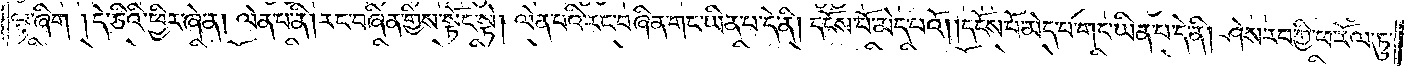ལྟ་ཞིག །དེ་ཅིའི་ཕྱིར་ཞེ་ན། ལེན་པ་ནི། རང་བཞིན་གྱིས་སྟོང་སྟེ། ལེན་པའི་རང་བཞིན་གང་ཡིན་པ་དེ་ནི། དངོས་པོ་མེད་པའོ། །དངོས་པོ་མེད་པ་གང་ཡིན་པ་དེ་ནི། ཤེས་རབ་ཀྱི་ཕ་རོལ་ཏུ་
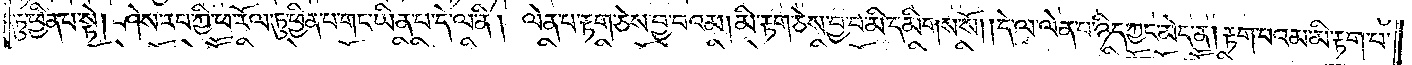ཏུ་ཕྱིན་པ་སྟེ། ཤེས་རབ་ཀྱི་ཕ་རོལ་ཏུ་ཕྱིན་པ་གང་ཡིན་པ་དེ་ལ་ནི། ལེན་པ་རྟག་ཅེས་བྱ་བའམ། མི་རྟག་ཅེས་བྱ་བ་མི་དམིགས་སོ། །དེ་ལ་ལེན་པ་ཉིད་ཀྱང་མེད་ན། རྟག་པའམ་མི་རྟག་པ་
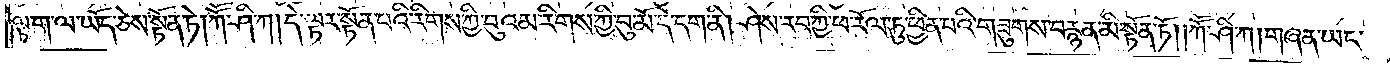ལྟ་ག་ལ་ཡོད་ཅེས་སྟོན་ཏེ། ཀཽ་ཤི་ཀ། དེ་ལྟར་སྟོན་པའི་རིགས་ཀྱི་བུའམ་རིགས་ཀྱི་བུ་མོ་དེ་དག་ནི། ཤེས་རབ་ཀྱི་ཕ་རོལ་ཏུ་ཕྱིན་པའི་གཟུགས་བརྙན་མི་སྟོན་ཏོ། །ཀཽ་ཤི་ཀ། གཞན་ཡང་
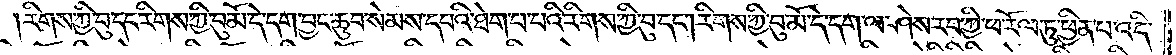རིགས་ཀྱི་བུ་དང་རིགས་ཀྱི་བུ་མོ་དེ་དག་བྱང་ཆུབ་སེམས་དཔའི་ཐེག་པ་པའི་རིགས་ཀྱི་བུ་དང༌། རིགས་ཀྱི་བུ་མོ་དེ་དག་ལ་ཤེས་རབ་ཀྱི་ཕ་རོལ་ཏུ་ཕྱིན་པ་འདི་
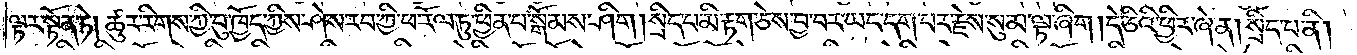ལྟར་སྟོན་ཏེ། ཚུར་རིགས་ཀྱི་བུ་ཁྱོད་ཀྱིས་ཤེས་རབ་ཀྱི་ཕ་རོལ་ཏུ་ཕྱིན་པ་སྒོམས་ཤིག །སྲིད་པ་མི་རྟག་ཅེས་བྱ་བར་ཡང་དག་པར་རྗེས་སུ་མ་ལྟ་ཞིག །དེ་ཅིའི་ཕྱིར་ཞེ་ན། སྲིད་པ་ནི།
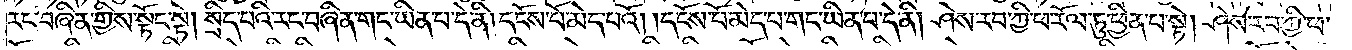རང་བཞིན་གྱིས་སྟོང་སྟེ། སྲིད་པའི་རང་བཞིན་གང་ཡིན་པ་དེ་ནི། དངོས་པོ་མེད་པའོ། །དངོས་པོ་མེད་པ་གང་ཡིན་པ་དེ་ནི། ཤེས་རབ་ཀྱི་ཕ་རོལ་ཏུ་ཕྱིན་པ་སྟེ། ཤེས་རབ་ཀྱི་ཕ་
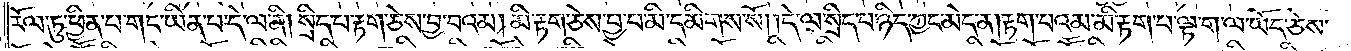རོལ་ཏུ་ཕྱིན་པ་གང་ཡིན་པ་དེ་ལ་ནི། སྲིད་པ་རྟག་ཅེས་བྱ་བའམ། མི་རྟག་ཅེས་བྱ་བ་མི་དམིགས་སོ། །དེ་ལ་སྲིད་པ་ཉིད་ཀྱང་མེད་ན། རྟག་པའམ་མི་རྟག་པ་ལྟ་ག་ལ་ཡོད་ཅེས་
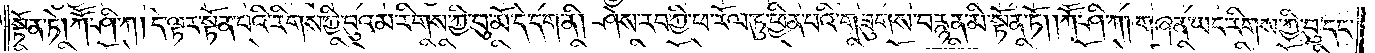སྟོན་ཏེ། ཀཽ་ཤི་ཀ། དེ་ལྟར་སྟོན་པའི་རིགས་ཀྱི་བུའམ་རིགས་ཀྱི་བུ་མོ་དེ་དག་ནི། ཤེས་རབ་ཀྱི་ཕ་རོལ་ཏུ་ཕྱིན་པའི་གཟུགས་བརྙན་མི་སྟོན་ཏོ། །ཀཽ་ཤི་ཀ། གཞན་ཡང་རིགས་ཀྱི་བུ་དང་
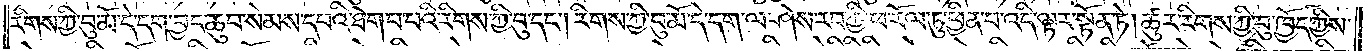རིགས་ཀྱི་བུ་མོ་དེ་དག་བྱང་ཆུབ་སེམས་དཔའི་ཐེག་པ་པའི་རིགས་ཀྱི་བུ་དང༌། རིགས་ཀྱི་བུ་མོ་དེ་དག་ལ་ཤེས་རབ་ཀྱི་ཕ་རོལ་ཏུ་ཕྱིན་པ་འདི་ལྟར་སྟོན་ཏེ། ཚུར་རིགས་ཀྱི་བུ་ཁྱོད་ཀྱིས་
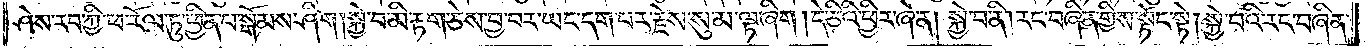ཤེས་རབ་ཀྱི་ཕ་རོལ་ཏུ་ཕྱིན་པ་སྒོམས་ཤིག །སྐྱེ་བ་མི་རྟག་ཅེས་བྱ་བར་ཡང་དག་པར་རྗེས་སུ་མ་ལྟ་ཞིག །དེ་ཅིའི་ཕྱིར་ཞེ་ན། སྐྱེ་བ་ནི། རང་བཞིན་གྱིས་སྟོང་སྟེ། སྐྱེ་བའི་རང་བཞིན་
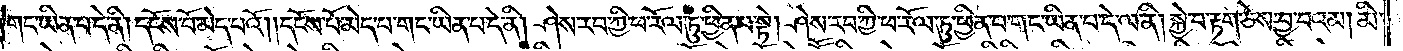གང་ཡིན་པ་དེ་ནི། དངོས་པོ་མེད་པའོ། །དངོས་པོ་མེད་པ་གང་ཡིན་པ་དེ་ནི། ཤེས་རབ་ཀྱི་ཕ་རོལ་ཏུ་ཕྱིན་པ་སྟེ། ཤེས་རབ་ཀྱི་ཕ་རོལ་ཏུ་ཕྱིན་པ་གང་ཡིན་པ་དེ་ལ་ནི། སྐྱེ་བ་རྟག་ཅེས་བྱ་བའམ། མི་
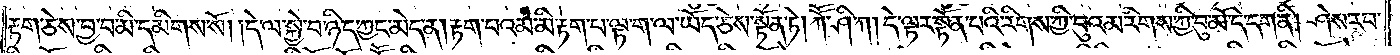རྟག་ཅེས་བྱ་བ་མི་དམིགས་སོ། །དེ་ལ་སྐྱེ་བ་ཉིད་ཀྱང་མེད་ན། རྟག་པའམ་མི་རྟག་པ་ལྟ་ག་ལ་ཡོད་ཅེས་སྟོན་ཏེ། ཀཽ་ཤི་ཀ། དེ་ལྟར་སྟོན་པའི་རིགས་ཀྱི་བུའམ་རིགས་ཀྱི་བུ་མོ་དེ་དག་ནི། ཤེས་རབ་
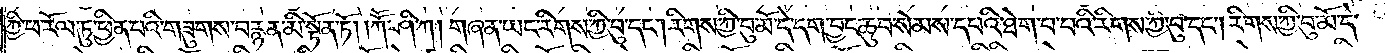ཀྱི་ཕ་རོལ་ཏུ་ཕྱིན་པའི་གཟུགས་བརྙན་མི་སྟོན་ཏོ། །ཀཽ་ཤི་ཀ། གཞན་ཡང་རིགས་ཀྱི་བུ་དང༌། རིགས་ཀྱི་བུ་མོ་དེ་དག་བྱང་ཆུབ་སེམས་དཔའི་ཐེག་པ་པའི་རིགས་ཀྱི་བུ་དང༌། རིགས་ཀྱི་བུ་མོ་དེ་
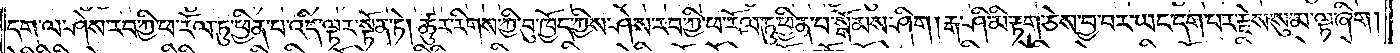དག་ལ་ཤེས་རབ་ཀྱི་ཕ་རོལ་ཏུ་ཕྱིན་པ་འདི་ལྟར་སྟོན་ཏེ། ཚུར་རིགས་ཀྱི་བུ་ཁྱོད་ཀྱིས་ཤེས་རབ་ཀྱི་ཕ་རོལ་ཏུ་ཕྱིན་པ་སྒོམས་ཤིག །རྒ་ཤི་མི་རྟག་ཅེས་བྱ་བར་ཡང་དག་པར་རྗེས་སུ་མ་ལྟ་ཞིག །
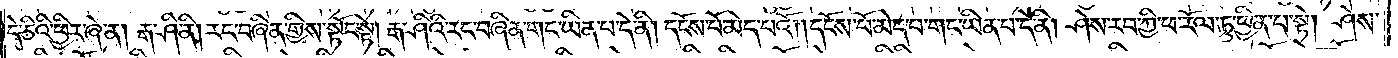དེ་ཅིའི་ཕྱིར་ཞེ་ན། རྒ་ཤི་ནི། རང་བཞིན་གྱིས་སྟོང་སྟེ། རྒ་ཤིའི་རང་བཞིན་གང་ཡིན་པ་དེ་ནི། དངོས་པོ་མེད་པའོ། །དངོས་པོ་མེད་པ་གང་ཡིན་པ་དེ་ནི། ཤེས་རབ་ཀྱི་ཕ་རོལ་ཏུ་ཕྱིན་པ་སྟེ། ཤེས་
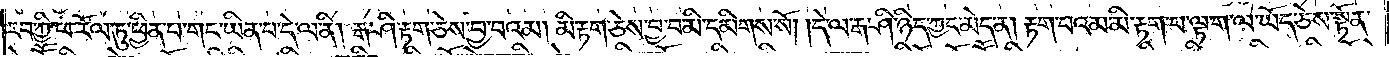རབ་ཀྱི་ཕ་རོལ་ཏུ་ཕྱིན་པ་གང་ཡིན་པ་དེ་ལ་ནི། རྒ་ཤི་རྟག་ཅེས་བྱ་བའམ། མི་རྟག་ཅེས་བྱ་བ་མི་དམིགས་སོ། །དེ་ལ་རྒ་ཤི་ཉིད་ཀྱང་མེད་ན། རྟག་པའམ་མི་རྟག་པ་ལྟ་ག་ལ་ཡོད་ཅེས་སྟོན་
